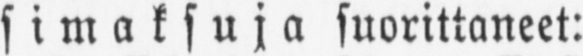simaksuja suorittaneet:
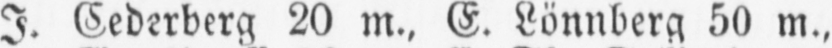I. Cederberg 20 m.. E. Lönnberg 50 m.,
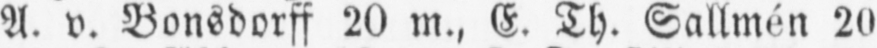A. v. Bonsdorff 20 m., E. Th. Sallmén 20
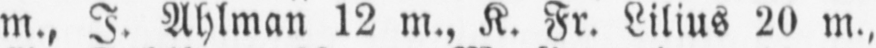m., I. Ahlman 12 m., K. Fr. Lilius 20 m.,
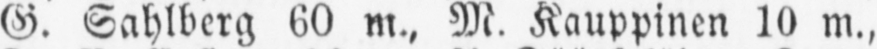G. Sahlberg 60 m., M. Kauppinen 10 m.,
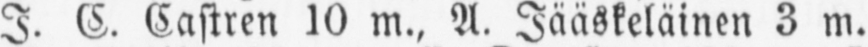I. C. Castren 10 m., A. Jääskeläinen 3 m.
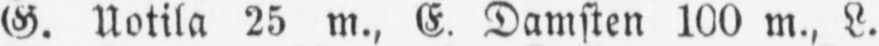G. Uotila 25 m., E. Damsten 100 m., L.
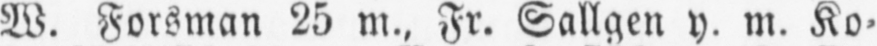W. Forsman 25 m., Fr. Sallgen y. m. Ko-
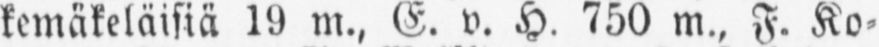kemäkeläisiä 19 m., E. v. H. 750 m., F. Ko-
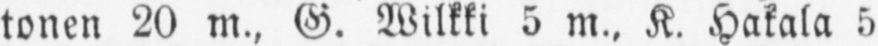tonen 20 m., G. Wilkki 5 m., K. Hakala 5
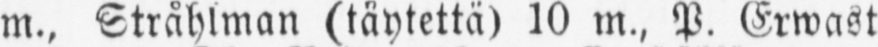m. Stråhlman (täytettä) 10 m., P. Erwast
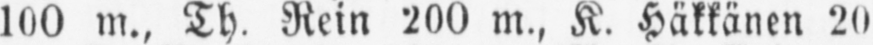100 m., Th. Rein 200 m., K. Häkkänen 20
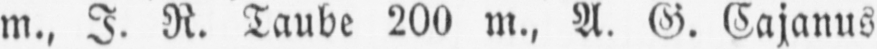m., I. R. Taube 200 m., A. G. Cajanus
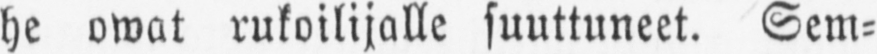he omat rukoilijalle suuttuneet. Sem-
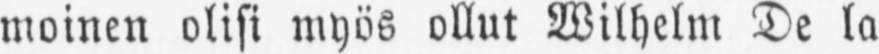moinen olisi myös ollut Wilhelm De la
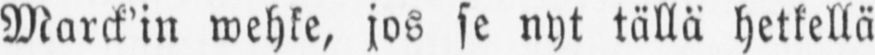Marck'in wehke, jos se nyt tällä hetkellä
